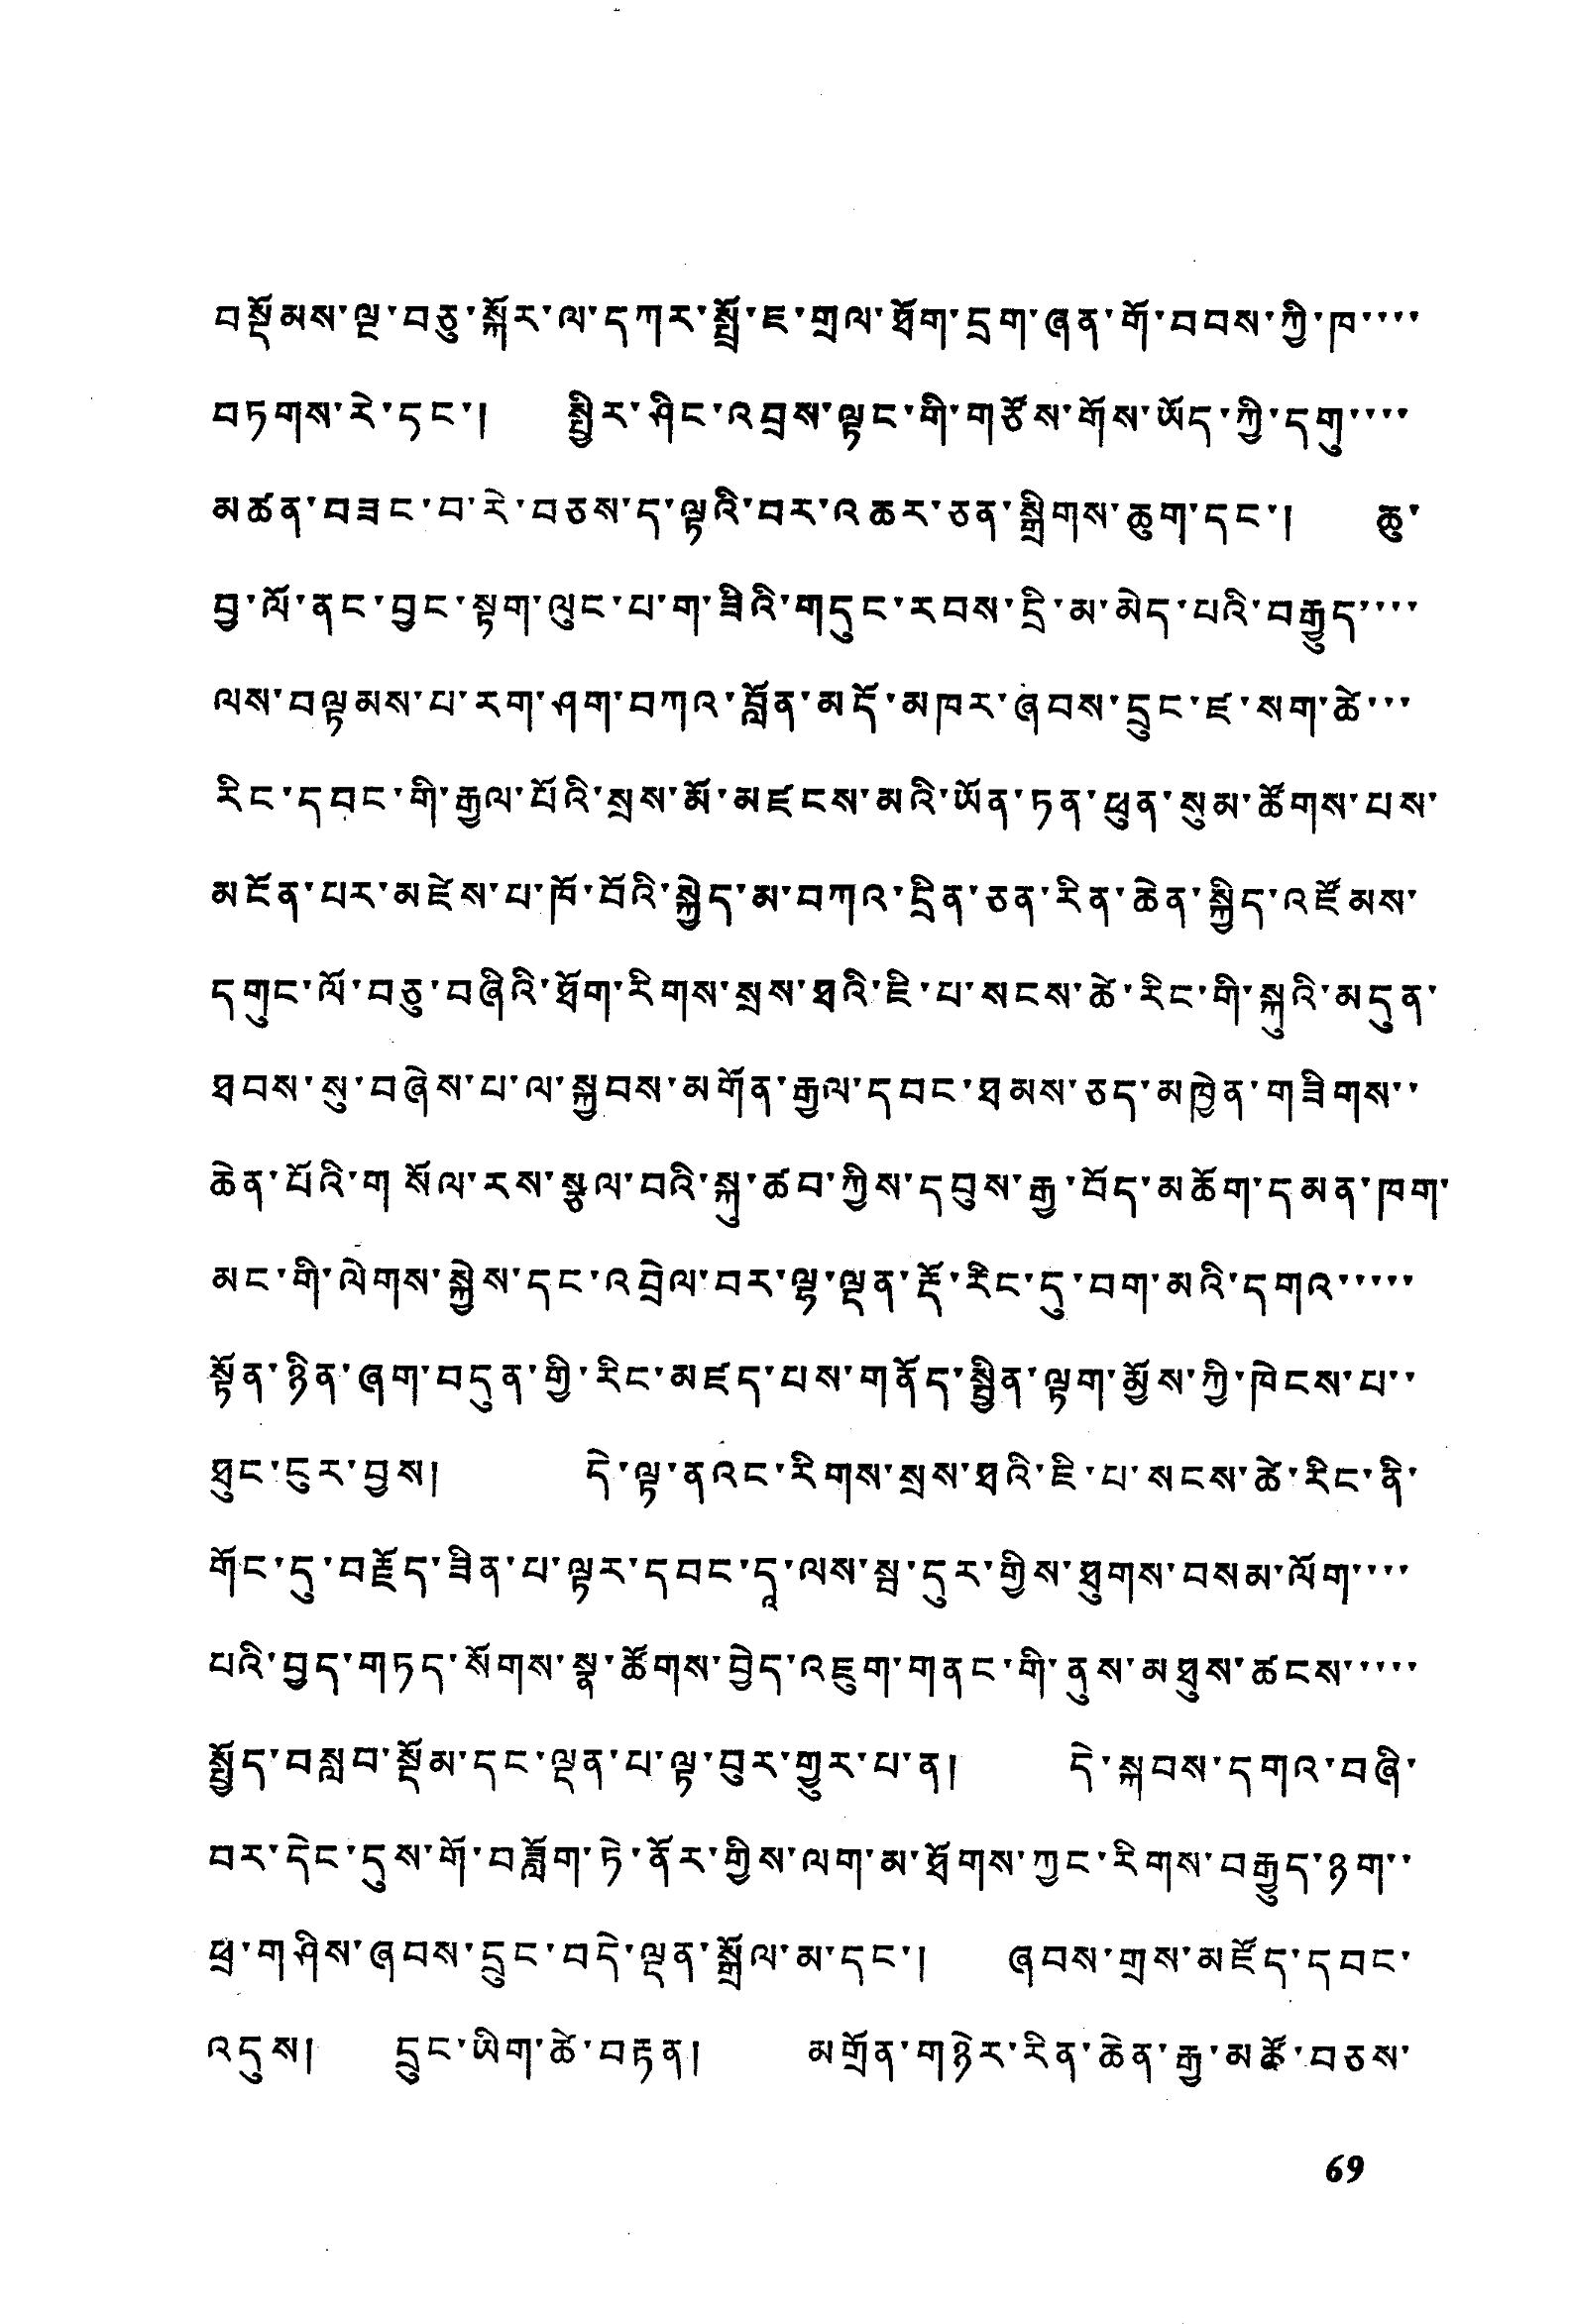བསྡོམས་ལྔ་བཅུ་སྐོར་ལ་དཀར་སྤྲོ་ཇ་གྲལ་ཐོག་དྲག་ཞན་གོ་བབས་ཀྱི་ཁ་་་་
བཏགས་རེ་ཏང་། སྤྱིར་ཤིང་འབྲས་ལྟང་གི་གཙོས་གོས་ཡོད་ཀྱི་དགུ་་་་
མཚན་བཟང་བ་རེ་བཅས་ད་ལྟའི་བར་འཆར་ཅན་སྒྲིགས་ཆུག་དང་། ཆུ་
བྱ་ལོ་ནང་བྱང་སྟག་ལུང་པ་ག་ཟིའི་གདུང་རབས་དྲི་མ་མེད་པའི་བརྒྱུད་་་་
ལས་བལྟམས་པ་རག་ཤག་བཀའ་བློན་མདོ་མཁར་ཞབས་དྲུང་ཛ་སག་ཚེ་་་
རིང་དབང་གི་རྒྱལ་པོའི་སྲས་མོ་མཛངས་མའི་ཡོན་ཏན་ཕུན་སུམ་ཚོགས་པས་
མངོན་པར་མཛེས་པ་ཁོ་བོའི་སྐྱེད་མ་བཀའ་དྲིན་ཅན་རིན་ཆེན་སྐྱིད་འཛོམས་
དགུང་ལོ་བཅུ་བཞིའི་ཐོག་རིགས་སྲས་ཐའི་ཇི་པ་སངས་ཚེ་རིང་གི་སྐུའི་མདུན་
ཐབས་སུ་བཞེས་པ་ལ་སྐྱབས་མགོན་རྒྱལ་དབང་ཐམས་ཅད་མཁྱེན་གཟིགས་་
ཆེན་པོའི་གསོལ་རས་སྩལ་བའི་སྐུ་ཚབ་ཀྱིས་དབུས་རྒྱ་བོད་མཆོག་དམན་ཁག་
མང་གི་ལེགས་སྐྱེས་དང་འབྲེལ་བར་ལྷ་ལྡན་རྡོ་རིང་དུ་བག་མའི་དགའ་་་་་
སྟོན་ཉིན་ཞག་བདུན་གྱི་རིང་མཛད་པས་གནོད་སྦྱིན་ལྟག་མྱོས་ཀྱི་ཁེངས་པ་་
ཐུང་ངུར་བྱས། དེ་ལྟར་ནའང་རིགས་སྲས་ཐའི་ཇི་པ་སངས་ཚེ་རིང་ནི་
གོང་དུ་བརྗོད་ཟིན་པ་ལྟར་དབང་དའ་ལས་སྦ་དུར་གྱིས་ཐུགས་བསམ་ལོག་་་་
པའི་བྱད་གཏད་སོགས་སྣ་ཚོགས་བྱེད་འཇུག་གནང་གི་ནུས་མཐུས་ཚངས་་་་་
སྤྱོད་བསླབ་སྡོམ་དང་ལྡན་པ་ལྟ་བུར་གྱུར་པ་ན། དེ་སྐབས་དགའ་བཞི་
བར་དེང་དུས་གོ་བཟློག་ཏེ་ནོར་གྱིས་ལག་མ་ཐོགས་ཀྱང་རིགས་བརྒྱུད་ཉག་་
ཕྲ་གཤིས་ཞབས་དྲུང་བདེ་ལྡན་སྒྲོལ་མ་དང་། ཞབས་གྲས་མཛོད་དབང་
འདུས། དྲུང་ཡིག་ཚེ་བརྟན། མགྲོན་གཉེར་རིན་ཆེན་རྒྱ་མཚོ་བཅས་
69
